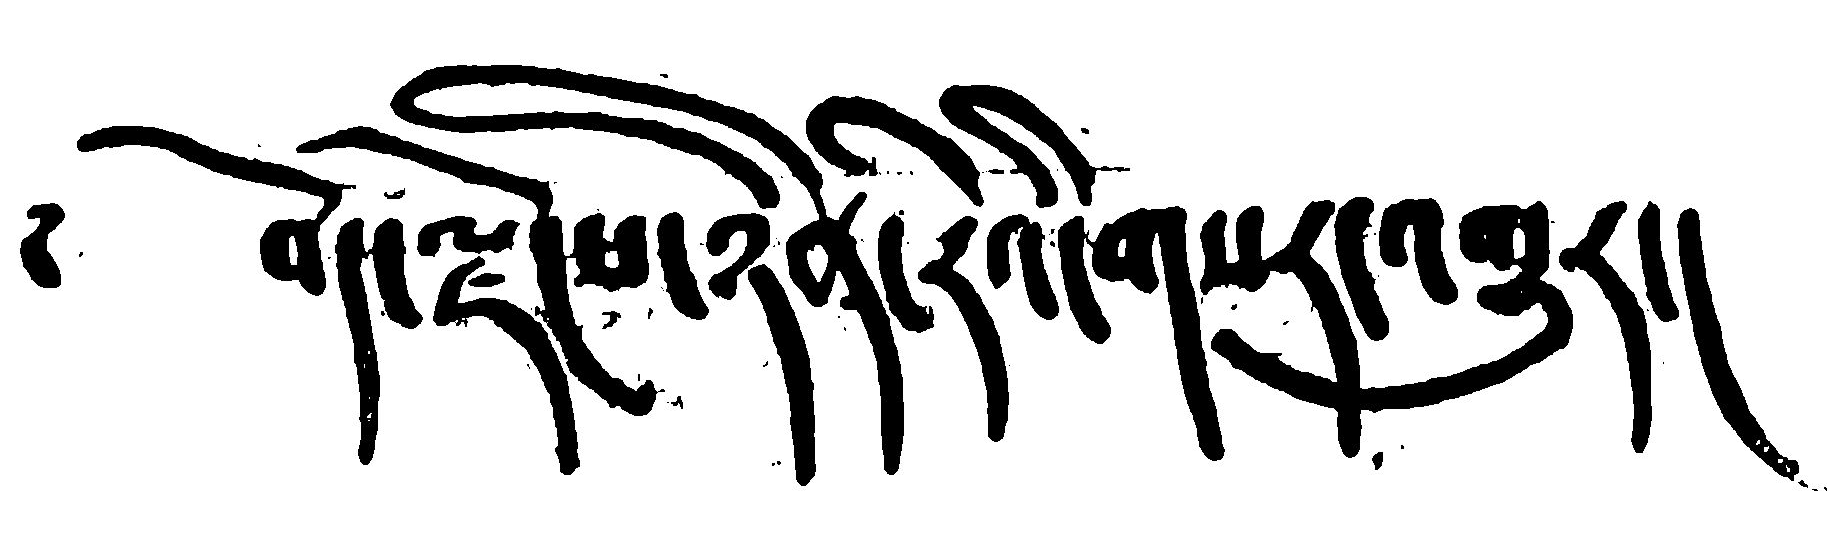༄ བོད་ལྗོངས་ཉིན་རེའི་གསར་འགྱུར།
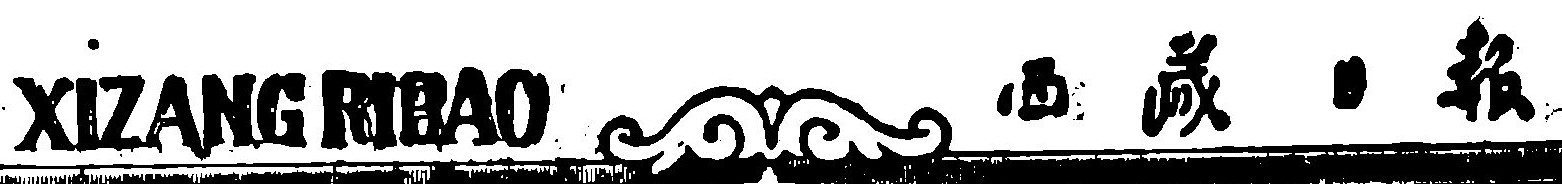XIZANG RIBAO 西 藏 日 報
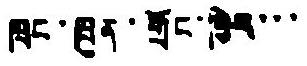ཁྲང་ཁྲུན་གྲོང་ཁྱེར་་་
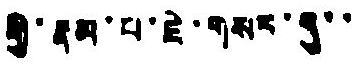གྱི་རྣམ་པ་ཇེ་གསར་དུ་་
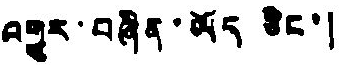འགྱུར་བཞིན་ཡོད ཅིང་།
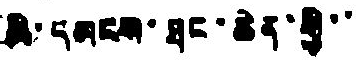མི་དམངས་ཐང་ཆེན་གྱི་་
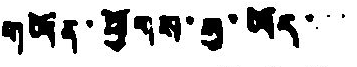གཡོན་ཕྱོགས་སུ་ཡོད་་་
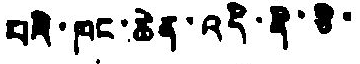པའི་ཁང་ཆེན་འདི་ནི་ཅི་
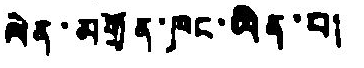ལེན་མགྲོན་ཁང་ཡིན་པ།
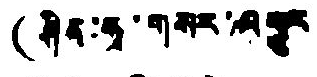(ཤིན་ཧྭ་གསར་འགྱུར
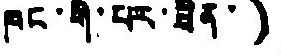ཁང་གི་པར་ཟིན་)
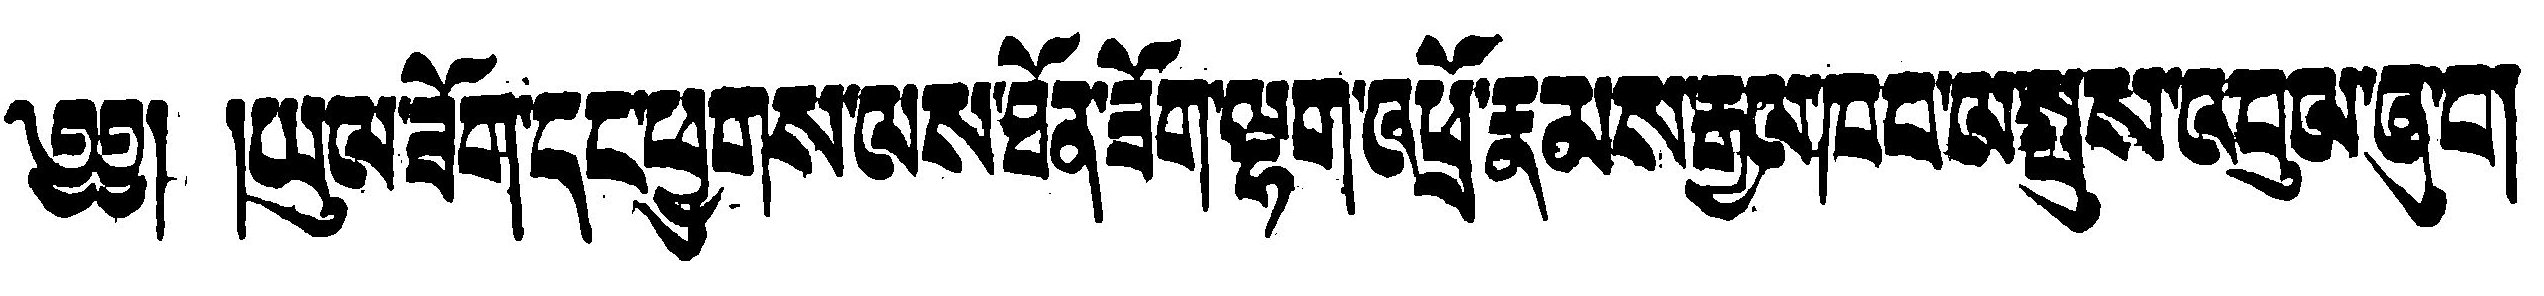༄༅། །ཡུལ་ཟོག་དང་ཕྱུགས་ལས་ཐོན་ཟོག་ལྷག་འཕྲོ་རྣམས་རྒྱལ་ཁབ་ལ་སྤུས་འབུལ་ཞུ་བ།
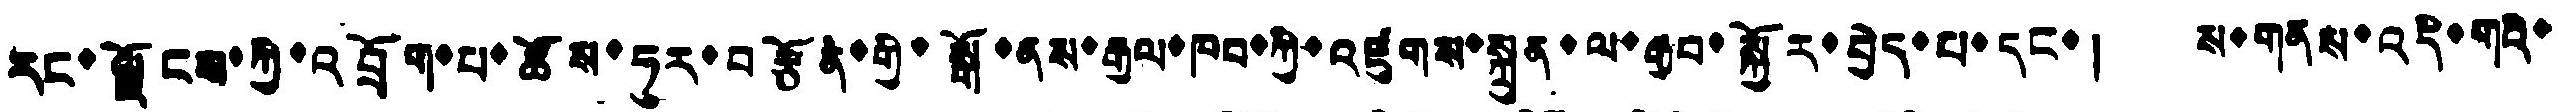རང་ལྗོངས་ཀྱི་འབྲོག་པ་ཚོས་ཧུར་བརྩོན་གྱི་སྒོ་ནས་རྒྱལ་ཁབ་ཀྱི་འཛུགས་སྐྲུན་ལ་རྒྱབ་སྐྱོར་བྱེད་པ་དང་། ས་གནས་འདི་གའི་
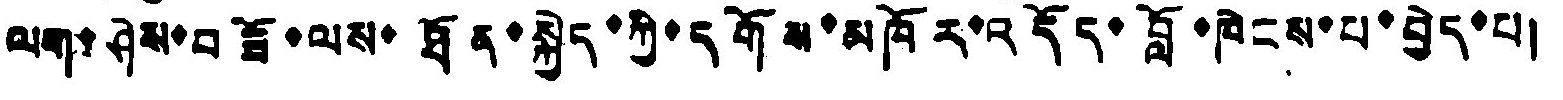ལག་ཤེས་བཟོ་ལས་ཐོན་སྐྱེད་ཀྱི་དགོས་མཁོར་འདོད་བློ་ཁེངས་པ་བྱེད་པ།
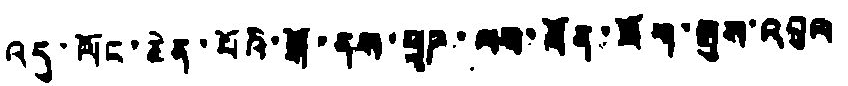འདུ་ལོང་ཆེན་པོའི་སྒོ་ནས་ཕྱུཌ་ལས་ཐོན་ཟོག་སྤུས་འབུལ
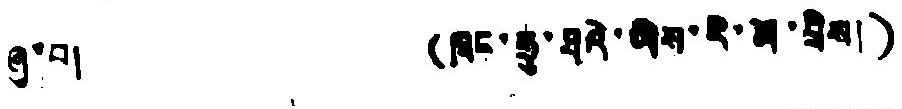ཞུ་བ། (ཁྲང་ཧྲུ་ཐའེ་ཡིས་རི་མོ་བྲིས།)
